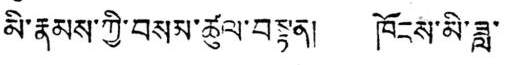མི་རྣམས་ཀྱི་བསམ་ཚུལ་བསྟན། ཁོངས་མི་ཟླ་
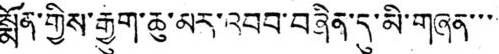སྨོན་གྱིས་རྒྱུག་ཆུ་མར་འབབ་བཞིན་དུ་མི་གཞན་་་
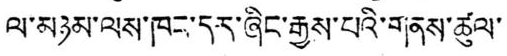ལ་མཉམ་ལས་ཁང་དར་ཞིང་རྒྱས་པའི་གནས་ཚུལ་
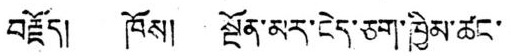བརྗོད། ཁོས། སྔོན་མར་ངེད་ཅག་ཁྱིམ་ཚང་
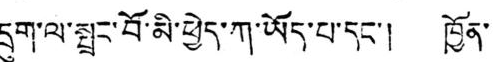དྲུག་ལ་སྤྲང་བོ་མི་ཕྱེད་ཀ་ཡོད་པ་དང་། ཁྱོན་
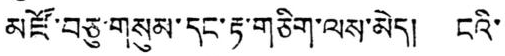མཛོ་བཅུ་གསུམ་དང་རྟ་གཅིག་ལས་མེད། ངའི་
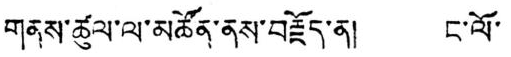གནས་ཚུལ་ལ་མཚོན་ནས་བརྗོད་ན། ང་ལོ་
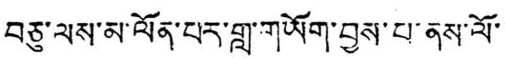བཅུ་ལས་མ་ལོན་པར་གླ་གཡོག་བྱས་པ་ནས་ལོ་
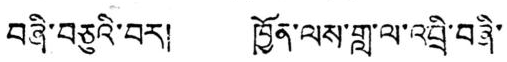བཞི་བཅུའི་བར། ཁྱོན་ལས་གླ་ལ་འབྲི་བཞི་
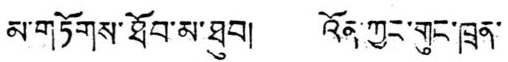མ་གཏོགས་ཐོབ་མ་ཐུབ། འོན་ཀྱང་གུང་ཁྲན་
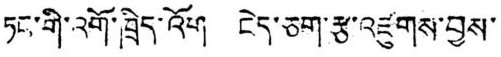ཏང་གི་འགོ་ཁྲིད་འོག ངེད་ཅག་རྩ་འཛུགས་བྱས་
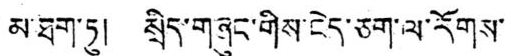མ་ཐག་ཏུ། སྲིད་གཞུང་གིས་ངེད་ཅག་ལ་རོགས་
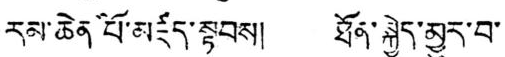རམ་ཆེན་པོ་མཛད་སྟབས། ཐོན་སྐྱེད་མྱུར་བ་
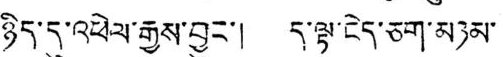ཉིད་དུ་འཕེལ་རྒྱས་བྱུང་། ད་ལྟ་ངེད་ཅག་མཉམ་
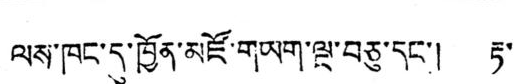ལས་ཁང་དུ་ཁྱོན་མཛོ་གཡག་ལྔ་བཅུ་དང་། རྟ་
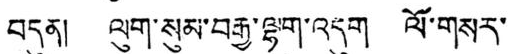བདུན། ལུག་སུམ་བརྒྱ་ལྷག་འདུག ལོ་གསར་
